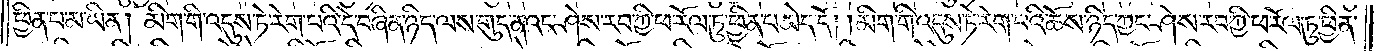ཕྱིན་པ་མ་ཡིན། མིག་གི་འདུས་ཏེ་རེག་པའི་དེ་བཞིན་ཉིད་ལས་གུད་ནའང་ཤེས་རབ་ཀྱི་ཕ་རོལ་ཏུ་ཕྱིན་པ་མེད་དོ། །མིག་གི་འདུས་ཏེ་རེག་པའི་ཆོས་ཉིད་ཀྱང་ཤེས་རབ་ཀྱི་ཕ་རོལ་ཏུ་ཕྱིན་
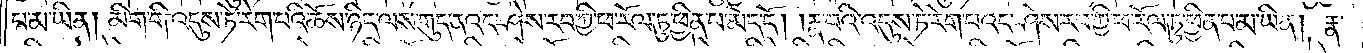པ་མ་ཡིན། མིག་གི་འདུས་ཏེ་རེག་པའི་ཆོས་ཉིད་ལས་གུད་ནའང་ཤེས་རབ་ཀྱི་ཕ་རོལ་ཏུ་ཕྱིན་པ་མེད་དོ། །རྣ་བའི་འདུས་ཏེ་རེག་པའང་ཤེས་རབ་ཀྱི་ཕ་རོལ་ཏུ་ཕྱིན་པ་མ་ཡིན། རྣ་
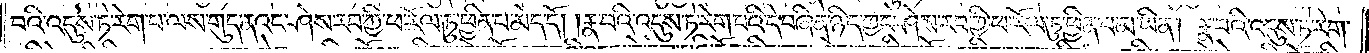བའི་འདུས་ཏེ་རེག་པ་ལས་གུད་ནའང་ཤེས་རབ་ཀྱི་ཕ་རོལ་ཏུ་ཕྱིན་པ་མེད་དོ། །རྣ་བའི་འདུས་ཏེ་རེག་པའི་དེ་བཞིན་ཉིད་ཀྱང་ཤེས་རབ་ཀྱི་ཕ་རོལ་ཏུ་ཕྱིན་པ་མ་ཡིན། རྣ་བའི་འདུས་ཏེ་རེག་
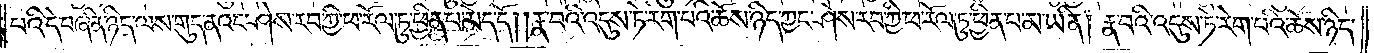པའི་དེ་བཞིན་ཉིད་ལས་གུད་ནའང་ཤེས་རབ་ཀྱི་ཕ་རོལ་ཏུ་ཕྱིན་པ་མེད་དོ། །རྣ་བའི་འདུས་ཏེ་རེག་པའི་ཆོས་ཉིད་ཀྱང་ཤེས་རབ་ཀྱི་ཕ་རོལ་ཏུ་ཕྱིན་པ་མ་ཡིན། རྣ་བའི་འདུས་ཏེ་རེག་པའི་ཆོས་ཉིད་
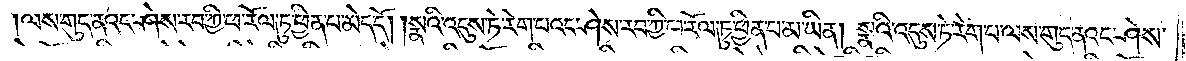ལས་གུད་ནའང་ཤེས་རབ་ཀྱི་ཕ་རོལ་ཏུ་ཕྱིན་པ་མེད་དོ། །སྣའི་འདུས་ཏེ་རེག་པའང་ཤེས་རབ་ཀྱི་ཕ་རོལ་ཏུ་ཕྱིན་པ་མ་ཡིན། སྣའི་འདུས་ཏེ་རེག་པ་ལས་གུད་ནའང་ཤེས་
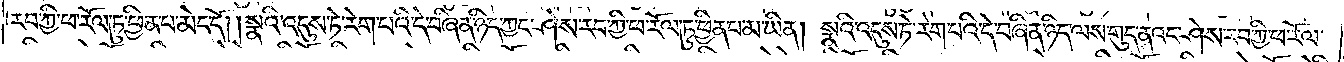རབ་ཀྱི་ཕ་རོལ་ཏུ་ཕྱིན་པ་མེད་དོ། །སྣའི་འདུས་ཏེ་རེག་པའི་དེ་བཞིན་ཉིད་ཀྱང་ཤེས་རབ་ཀྱི་ཕ་རོལ་ཏུ་ཕྱིན་པ་མ་ཡིན། སྣའི་འདུས་ཏེ་རེག་པའི་དེ་བཞིན་ཉིད་ལས་གུད་ནའང་ཤེས་རབ་ཀྱི་ཕ་རོལ་
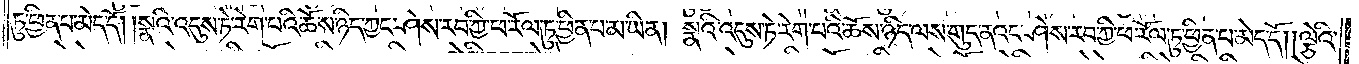ཏུ་ཕྱིན་པ་མེད་དོ། །སྣའི་འདུས་ཏེ་རེག་པའི་ཆོས་ཉིད་ཀྱང་ཤེས་རབ་ཀྱི་ཕ་རོལ་ཏུ་ཕྱིན་པ་མ་ཡིན། སྣའི་འདུས་ཏེ་རེག་པའི་ཆོས་ཉིད་ལས་གུད་ནའང་ཤེས་རབ་ཀྱི་ཕ་རོལ་ཏུ་ཕྱིན་པ་མེད་དོ། །ལྕེའི་
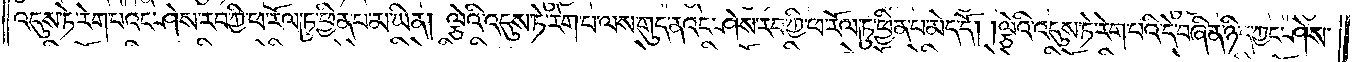འདུས་ཏེ་རེག་པའང་ཤེས་རབ་ཀྱི་ཕ་རོལ་ཏུ་ཕྱིན་པ་མ་ཡིན། ལྕེའི་འདུས་ཏེ་རེག་པ་ལས་གུད་ནའང་ཤེས་རབ་ཀྱི་ཕ་རོལ་ཏུ་ཕྱིན་པ་མེད་དོ། །ལྕེའི་འདུས་ཏེ་རེག་པའི་དེ་བཞིན་ཉིད་ཀྱང་ཤེས་
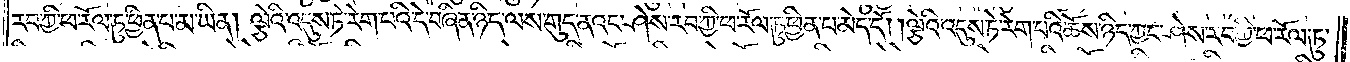རབ་ཀྱི་ཕ་རོལ་ཏུ་ཕྱིན་པ་མ་ཡིན། ལྕེའི་འདུས་ཏེ་རེག་པའི་དེ་བཞིན་ཉིད་ལས་གུད་ནའང་ཤེས་རབ་ཀྱི་ཕ་རོལ་ཏུ་ཕྱིན་པ་མེད་དོ། །ལྕེའི་འདུས་ཏེ་རེག་པའི་ཆོས་ཉིད་ཀྱང་ཤེས་རབ་ཀྱི་ཕ་རོལ་ཏུ་
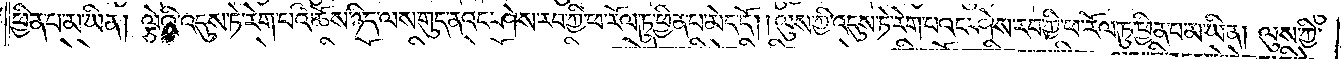ཕྱིན་པ་མ་ཡིན། ལྕེའི་འདུས་ཏེ་རེག་པའི་ཆོས་ཉིད་ལས་གུད་ནའང་ཤེས་རབ་ཀྱི་ཕ་རོལ་ཏུ་ཕྱིན་པ་མེད་དོ། །ལུས་ཀྱི་འདུས་ཏེ་རེག་པའང་ཤེས་རབ་ཀྱི་ཕ་རོལ་ཏུ་ཕྱིན་པ་མ་ཡིན། ལུས་ཀྱི་
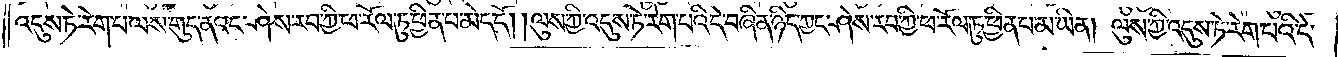འདུས་ཏེ་རེག་པ་ལས་གུད་ནའང་ཤེས་རབ་ཀྱི་ཕ་རོལ་ཏུ་ཕྱིན་པ་མེད་དོ། །ལུས་ཀྱི་འདུས་ཏེ་རེག་པའི་དེ་བཞིན་ཉིད་ཀྱང་ཤེས་རབ་ཀྱི་ཕ་རོལ་ཏུ་ཕྱིན་པ་མ་ཡིན། ལུས་ཀྱི་འདུས་ཏེ་རེག་པའི་དེ་
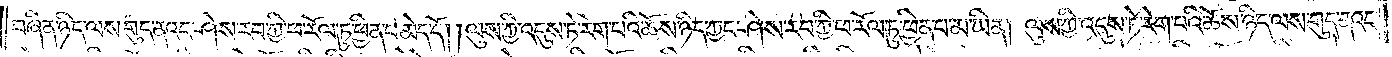བཞིན་ཉིད་ལས་གུད་ནའང་ཤེས་རབ་ཀྱི་ཕ་རོལ་ཏུ་ཕྱིན་པ་མེད་དོ། །ལུས་ཀྱི་འདུས་ཏེ་རེག་པའི་ཆོས་ཉིད་ཀྱང་ཤེས་རབ་ཀྱི་ཕ་རོལ་ཏུ་ཕྱིན་པ་མ་ཡིན། ལུས་ཀྱི་འདུས་ཏེ་རེག་པའི་ཆོས་ཉིད་ལས་གུད་ནའང་
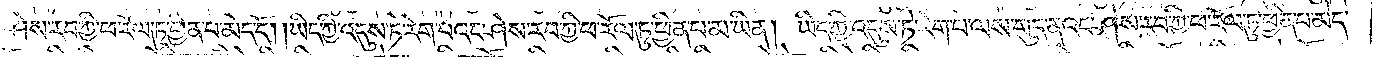ཤེས་རབ་ཀྱི་ཕ་རོལ་ཏུ་ཕྱིན་པ་མེད་དོ། །ཡིད་ཀྱི་འདུས་ཏེ་རེག་པའང་ཤེས་རབ་ཀྱི་ཕ་རོལ་ཏུ་ཕྱིན་པ་མ་ཡིན། ཡིད་ཀྱི་འདུས་ཏེ་རེག་པ་ལས་གུད་ནའང་ཤེས་རབ་ཀྱི་ཕ་རོལ་ཏུ་ཕྱིན་པ་མེད་
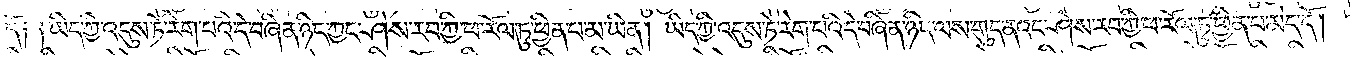དོ། །ཡིད་ཀྱི་འདུས་ཏེ་རེག་པའི་དེ་བཞིན་ཉིད་ཀྱང་ཤེས་རབ་ཀྱི་ཕ་རོལ་ཏུ་ཕྱིན་པ་མ་ཡིན། ཡིད་ཀྱི་འདུས་ཏེ་རེག་པའི་དེ་བཞིན་ཉིད་ལས་གུད་ནའང་ཤེས་རབ་ཀྱི་ཕ་རོལ་ཏུ་ཕྱིན་པ་མེད་དོ། །
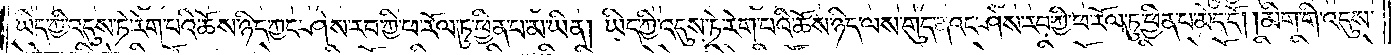ཡིད་ཀྱི་འདུས་ཏེ་རེག་པའི་ཆོས་ཉིད་ཀྱང་ཤེས་རབ་ཀྱི་ཕ་རོལ་ཏུ་ཕྱིན་པ་མ་ཡིན། ཡིད་ཀྱི་འདུས་ཏེ་རེག་པའི་ཆོས་ཉིད་ལས་གུད་ནའང་ཤེས་རབ་ཀྱི་ཕ་རོལ་ཏུ་ཕྱིན་པ་མེད་དོ། །མིག་གི་འདུས་
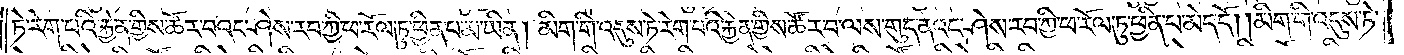ཏེ་རེག་པའི་རྐྱེན་གྱིས་ཚོར་བའང་ཤེས་རབ་ཀྱི་ཕ་རོལ་ཏུ་ཕྱིན་པ་མ་ཡིན། མིག་གི་འདུས་ཏེ་རེག་པའི་རྐྱེན་གྱིས་ཚོར་བ་ལས་གུད་ནའང་ཤེས་རབ་ཀྱི་ཕ་རོལ་ཏུ་ཕྱིན་པ་མེད་དོ། །མིག་གི་འདུས་ཏེ་
